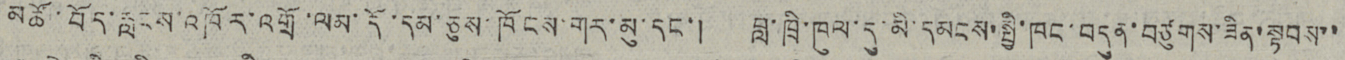མཚོ་བོད་རླངས་འཁོར་འགྲོ་ལམ་དོ་དམ་ཅུས་ཁོངས་གར་མུ་དང་། བླ་ཁྲི་ཁུལ་དུ་མི་དམངས་སྤྱི་ཁང་བདུན་བཙུགས་ཟིན་སྟབས་་
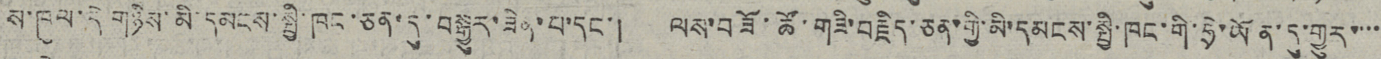ས་ཁུལ་དེ་གཉིས་མི་དམངས་སྤྱི་ཁང་ཅན་དུ་བསྒྱུར་ཟིན་པ་དང་།  ལས་བཟོ་ཚོ་གཟི་བརྗིད་ཅན་གྱི་མི་དམངས་སྤྱི་ཁང་གི་ཧྲེ་ཡོན་དུ་གྱུར་་་་
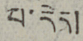པ་རེད།
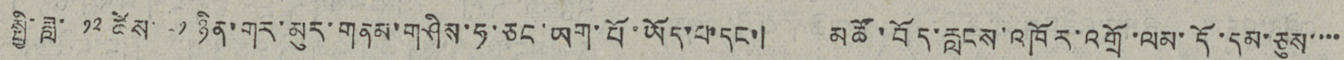སྤྱི་ཟླ་ ༡༢ ཚེས་ ༢༡ ཉིན་གར་མུར་གནམ་གཤིས་ཧ་ཅང་ཡག་པོ་ཡོད་པ་དང་།  མཚོ་བོད་རླངས་འཁོར་འགྲོ་ལམ་དོ་དམ་ཅུས་་་་
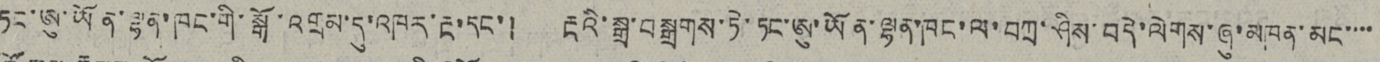ཏང་ཨུ་ཡོན་ལྷན་ཁང་གི་སྒོ་འགྲམ་དུ་འཁུར་རྔ་དང་། རྔའི་སྒྲ་བསྒྲགས་ཏེ་ཏང་ཨུ་ཡོན་ལྷན་ཁང་ལ་བཀྲ་ཤིས་བདེ་ལེགས་ཞུ་མཁན་མང་་་་
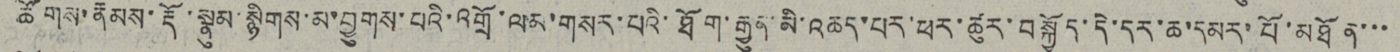ཚོགས་རྣམས་རྡོ་སྣུམ་སྙིགས་མ་བྱུགས་པའི་འགྲོ་ལམ་གསར་པའི་ཐོག་རྒྱུན་མི་འཆད་པར་ཕར་ཚུར་བསྐྱོད་དེ་དར་ཆ་དམར་པོ་མཐོན་་་
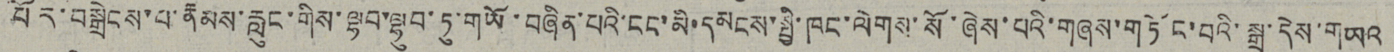པོར་བསྒྲེངས་པ་རྣམས་རླུང་གིས་ལྷབ་ལྷུབ་ཏུ་གཡོ་བཞིན་པའི་ངང་མི་དམངས་སྤྱི་ཁང་ལེགས་སོ་ཞེས་པའི་གཞས་གཏོང་བའི་སྒ་དེས་གཡའ
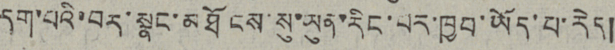དག་པའི་བར་སྣང་མཐོངས་སུ་ཡུན་རིང་པར་ཁྱབ་ཡོད་པ་རེད།
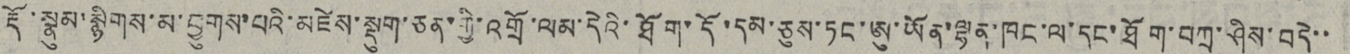རྡོ་སྣུམ་སྙིགས་མ་བྱུགས་པའི་མཛེས་སྡུག་ཅན་གྱི་འགྲོ་ལམ་དེའི་ཐོག་དོ་དམ་ཅུས་ཏང་ཨུ་ཡོན་ལྷན་ཁང་ལ་དང་ཐོག་བཀྲ་ཤིས་བདེ་་
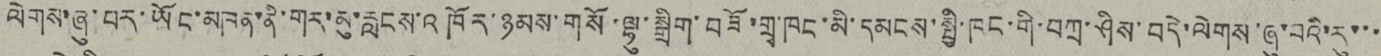ལེགས་ཞུ་བར་ཡོང་མཁན་ནི་གར་མུ་རླངས་འཁོར་ཉམས་གསོ་ལྷུ་སྒྲིག་བཟོ་གྲྭ་ཁང་མི་དམངས་སྤྱི་ཁང་གི་བཀྲ་ཤིས་བདེ་ལེགས་ཞུ་བའི་རུ་་་
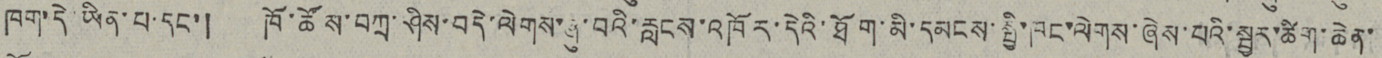ཁག་དེ་ཡིན་པ་དང་། ཁོ་ཚོས་བཀྲ་ཤིས་བདེ་ལེགས་ཞུ་བའི་རླངས་འཁོར་དེའི་ཐོག་མི་དམངས་སྤྱི་ཁང་ལེགས་ཞེས་པའི་སྦྱར་ཚིག་ཆེན་
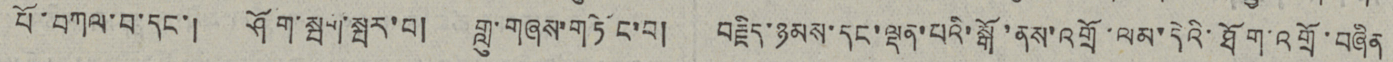པོ་བཀལ་བ་དང་། ཤོག་སྦག་སྤར་བ། གླུ་གཞས་གཏོང་བ། བརྗིད་ཉམས་དང་ལྡན་པའི་སྒོ་ནས་འགྲོ་ལམ་དེའི་ཐོག་འགྲོ་བཞིན
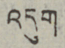འདུག
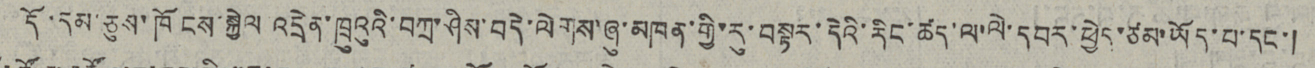དམ་ཅུས་ཁོངས་སྐྱེལ འདྲེན་ཁྲུའུའི་བཀྲ་ཤིས་བདེ་ལེགས་ཞུ་མཁན་གྱི་རུ་བསྟར་དེའི་རིང་ཚད་ལ་ལེ་དབར་ཕྱེད་ཙམ་ཡོད་པ་དང་།
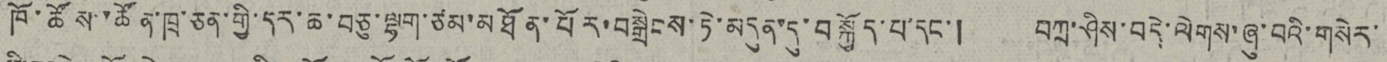ཁོ་ཚོས་་ཚོན་ཁྲ་ཅན་གྱི་དར་ཆ་བཅུ་ལྷག་ཙམ་མཐོན་པོར་བསྒྲེངས་ཏེ་མདུན་དུ་བསྐྱོད་པ་དང་། བཀྲ་ཤིས་བདེ་ལེགས་ཞུ་བའི་གསེར་
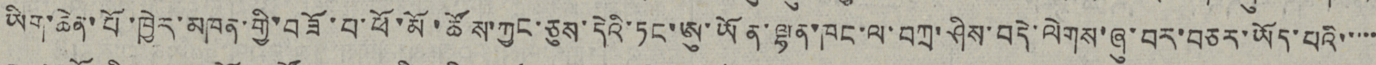ཡིག་ཆེན་པོ་ཁྱེར་མཁན་གྱི་བཟོ་པ་ཕོ་མོ་ཚོས་ཀྱང་ཅུས་དེའི་ཏང་ཨུ་ཡོན་ལྷན་ཁང་ལ་བཀྲ་ཤིས་བདེ་ལེགས་ཞུ་བར་བཅར་ཡོད་པའི་་་་་
